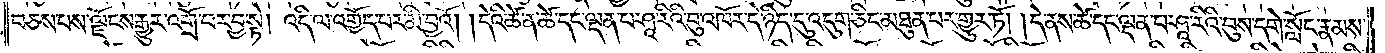བཅས་པས་ལྗོངས་རྒྱུར་འགྲོ་བར་བྱ་སྟེ། འདི་ལ་འགྱོད་པར་མི་བྱའོ། །དེའི་ཚེ་ན་ཚེ་དང་ལྡན་པ་ཤཱ་རིའི་བུ་འཁོར་དེ་ཉིད་དུ་འདུག་ཅིང་མཐུན་པར་གྱུར་ཏོ། །དེ་ནས་ཚེ་དང་ལྡན་པ་ཤཱ་རིའི་བུས་དགེ་སློང་རྣམས་
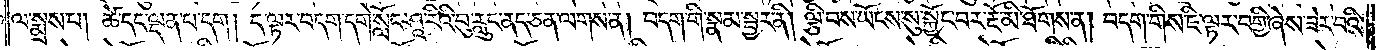ལ་སྨྲས་པ། ཚེ་དང་ལྡན་པ་དག །ད་ལྟར་བདག་དགེ་སློང་ཤཱ་རིའི་བུ་རླུང་ནད་ཅན་ལགས་ན། བདག་གི་སྣམ་སྦྱར་ནི། ལྕི་བས་ཡོངས་སུ་སྐྱོང་བར་རྔོ་མི་ཐོགས་ན། བདག་གིས་ཇི་ལྟར་བགྱི་ཞེས་ཟེར་བའི་
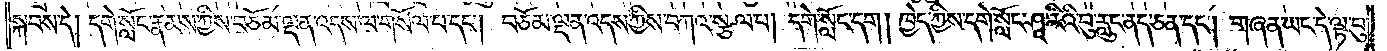སྐབས་དེ། དགེ་སློང་རྣམས་ཀྱིས་བཅོམ་ལྡན་འདས་ལ་གསོལ་པ་དང༌། བཅོམ་ལྡན་འདས་ཀྱིས་བཀའ་སྩལ་པ། དགེ་སློང་དག། ཁྱེད་ཀྱིས་དགེ་སློང་ཤཱ་རིའི་བུ་རླུང་ནད་ཅན་དང༌། གཞན་ཡང་དེ་ལྟ་བུ།
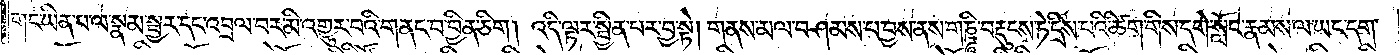གང་ཡིན་པ་ལ་སྣམ་སྦྱར་དང་འབྲལ་བར་མི་འགྱུར་བའི་གནང་བ་བྱིན་ཅིག །འདི་ལྟར་སྦྱིན་པར་བྱ་སྟེ། གནས་མལ་བཤམས་པ་བྱས་ནས་གཎྜཱི་བརྡུངས་ཏེ་དྲིས་པའི་ཚིག་གིས་དགེ་སློང་རྣམས་ལ་ཡང་དག་
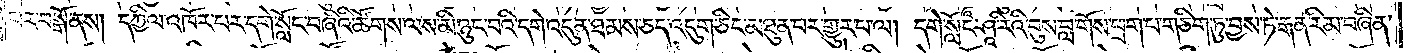པར་བསྒོ་ནས། དཀྱིལ་འཁོར་པར་དགེ་སློང་བཞིའི་ཚོགས་ལས་མི་ཉུང་བའི་དགེ་འདུན་ཐམས་ཅད་འདུག་ཅིང་མཐུན་པར་གྱུར་པ་ལ། དགེ་སློང་ཤཱ་རིའི་བུས་བླ་གོས་ཕྲག་པ་གཅིག་ཏུ་བྱས་ཏེ་རྒན་རིམ་བཞིན་
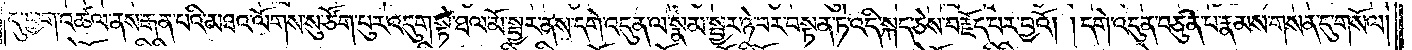དུ་ཕྱག་འཚལ་ནས་རྒན་པའི་མཐའ་ལོགས་སུ་ཙོག་པུར་འདུག་སྟེ་ཐལ་མོ་སྦྱར་ནས་དགེ་འདུན་ལ་སྣམ་སྦྱར་ཉེ་བར་བསྟན་ཏེ་འདི་སྐད་ཅེས་བརྗོད་པར་བྱའོ། །དགེ་འདུན་བཙུན་པ་རྣམས་གསན་དུ་གསོལ།
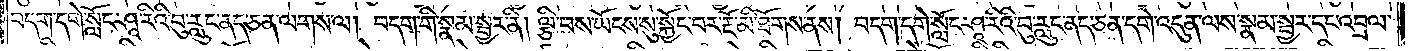བདག་དགེ་སློང་ཤཱ་རིའི་བུ་རླུང་ནད་ཅན་ལགས་ལ། བདག་གི་སྣམ་སྦྱར་ནི། ལྕི་བས་ཡོངས་སུ་སྐྱོང་བར་རྔོ་མི་ཐོགས་ནས། བདག་དགེ་སློང་ཤཱ་རིའི་བུ་རླུང་ནད་ཅན་དགེ་འདུན་ལས་སྣམ་སྦྱར་དང་འབྲལ་
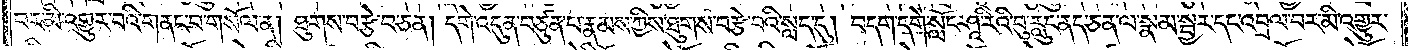བར་མི་འགྱུར་བའི་གནང་བ་གསོལ་ན། ཐུགས་བརྩེ་བ་ཅན། དགེ་འདུན་བཙུན་པ་རྣམས་ཀྱིས་ཐུགས་བརྩེ་བའི་སླད་དུ། བདག་དགེ་སློང་ཤཱ་རིའི་བུ་རླུང་ནད་ཅན་ལ་སྣམ་སྦྱར་དང་འབྲལ་བར་མི་འགྱུར་
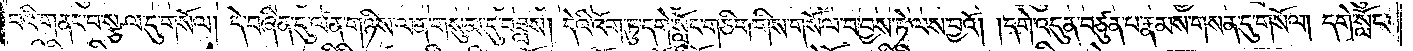བའི་གནང་བ་སྩལ་དུ་གསོལ། དེ་བཞིན་དུ་ལན་གཉིས་ལན་གསུམ་དུ་བཟླས། དེའི་འོག་ཏུ་དགེ་སློང་གཅིག་གིས་གསོལ་བ་བྱས་ཏེ་ལས་བྱའོ། །དགེ་འདུན་བཙུན་པ་རྣམས་གསན་དུ་གསོལ། དགེ་སློང་
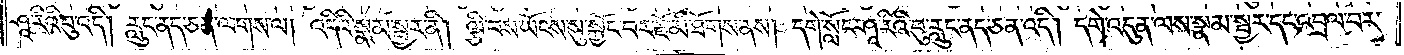ཤཱ་རིའི་བུ་འདི། རླུང་ནད་ཅན་ལགས་ལ། འདིའི་སྣམ་སྦྱར་ནི། ལྕི་བས་ཡོངས་སུ་སྐྱོང་བར་རྔོ་མི་ཐོགས་ནས། དགེ་སློང་ཤཱ་རིའི་བུ་རླུང་ནད་ཅན་འདི། དགེ་འདུན་ལས་སྣམ་སྦྱར་དང་འབྲལ་བར་
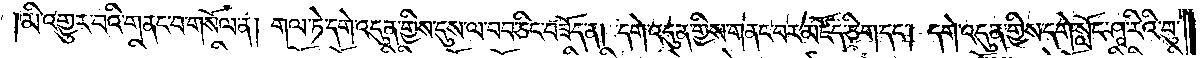མི་འགྱུར་བའི་གནང་བ་གསོལ་ན། གལ་ཏེ་དགེ་འདུན་གྱིས་དུས་ལ་བབ་ཅིང་བཟོད་ན། དགེ་འདུན་གྱིས་གནང་བར་མཛོད་ཅིག་དང༌། དགེ་འདུན་གྱིས་དགེ་སློང་ཤཱ་རིའི་བུ་
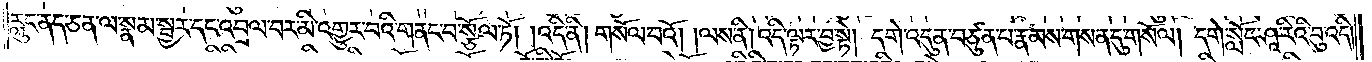རླུང་ནད་ཅན་ལ་སྣམ་སྦྱར་དང་འབྲལ་བར་མི་འགྱུར་བའི་གནང་བ་སྩོལ་ཏོ། །འདི་ནི། གསོལ་བའོ། །ལས་ནི། འདི་ལྟར་བྱ་སྟེ། དགེ་འདུན་བཙུན་པ་རྣམས་གསན་དུ་གསོལ། དགེ་སློང་ཤཱ་རིའི་བུ་འདི་
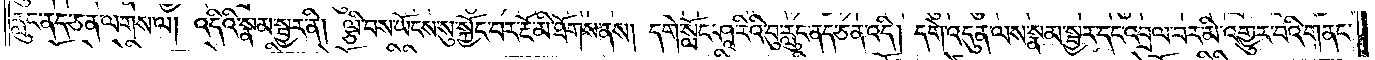རླུང་ནད་ཅན་ལགས་ལ། འདིའི་སྣམ་སྦྱར་ནི། ལྕི་བས་ཡོངས་སུ་སྐྱོང་བར་རྔོ་མི་ཐོགས་ནས། དགེ་སློང་ཤཱ་རིའི་བུ་རླུང་ནད་ཅན་འདི། དགེ་འདུན་ལས་སྣམ་སྦྱར་དང་འབྲལ་བར་མི་འགྱུར་བའི་གནང་
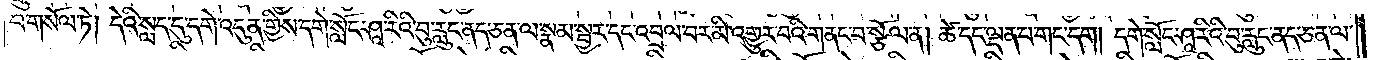བ་གསོལ་ཏེ། དེའི་སླད་དུ་དགེ་འདུན་གྱིས་དགེ་སློང་ཤཱ་རིའི་བུ་རླུང་ནད་ཅན་ལ་སྣམ་སྦྱར་དང་འབྲལ་བར་མི་འགྱུར་བའི་གནང་བ་སྩོལ་ན། ཚེ་དང་ལྡན་པ་གང་དག །དགེ་སློང་ཤཱ་རིའི་བུ་རླུང་ནད་ཅན་ལ་
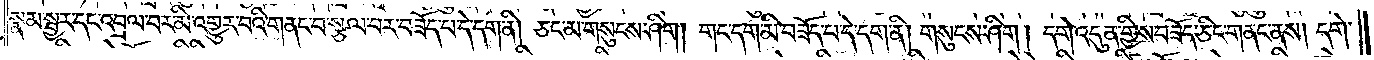སྣམ་སྦྱར་དང་འབྲལ་བར་མི་འགྱུར་བའི་གནང་བ་སྩལ་བར་བཟོད་པ་དེ་དག་ནི། ཅང་མ་གསུངས་ཤིག། གང་དག་མི་བཟོད་པ་དེ་དག་ནི། གསུངས་ཤིག། དགེ་འདུན་གྱིས་བཟོད་ཅིང་གནང་ནས། དགེ་
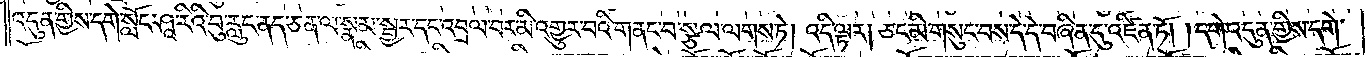འདུན་གྱིས་དགེ་སློང་ཤཱ་རིའི་བུ་རླུང་ནད་ཅན་ལ་སྣམ་སྦྱར་དང་འབྲལ་བར་མི་འགྱུར་བའི་གནང་བ་སྩལ་ལགས་ཏེ། འདི་ལྟར། ཅང་མི་གསུང་བས་དེ་དེ་བཞིན་དུ་འཛིན་ཏོ། །དགེ་འདུན་གྱིས་དགེ་
